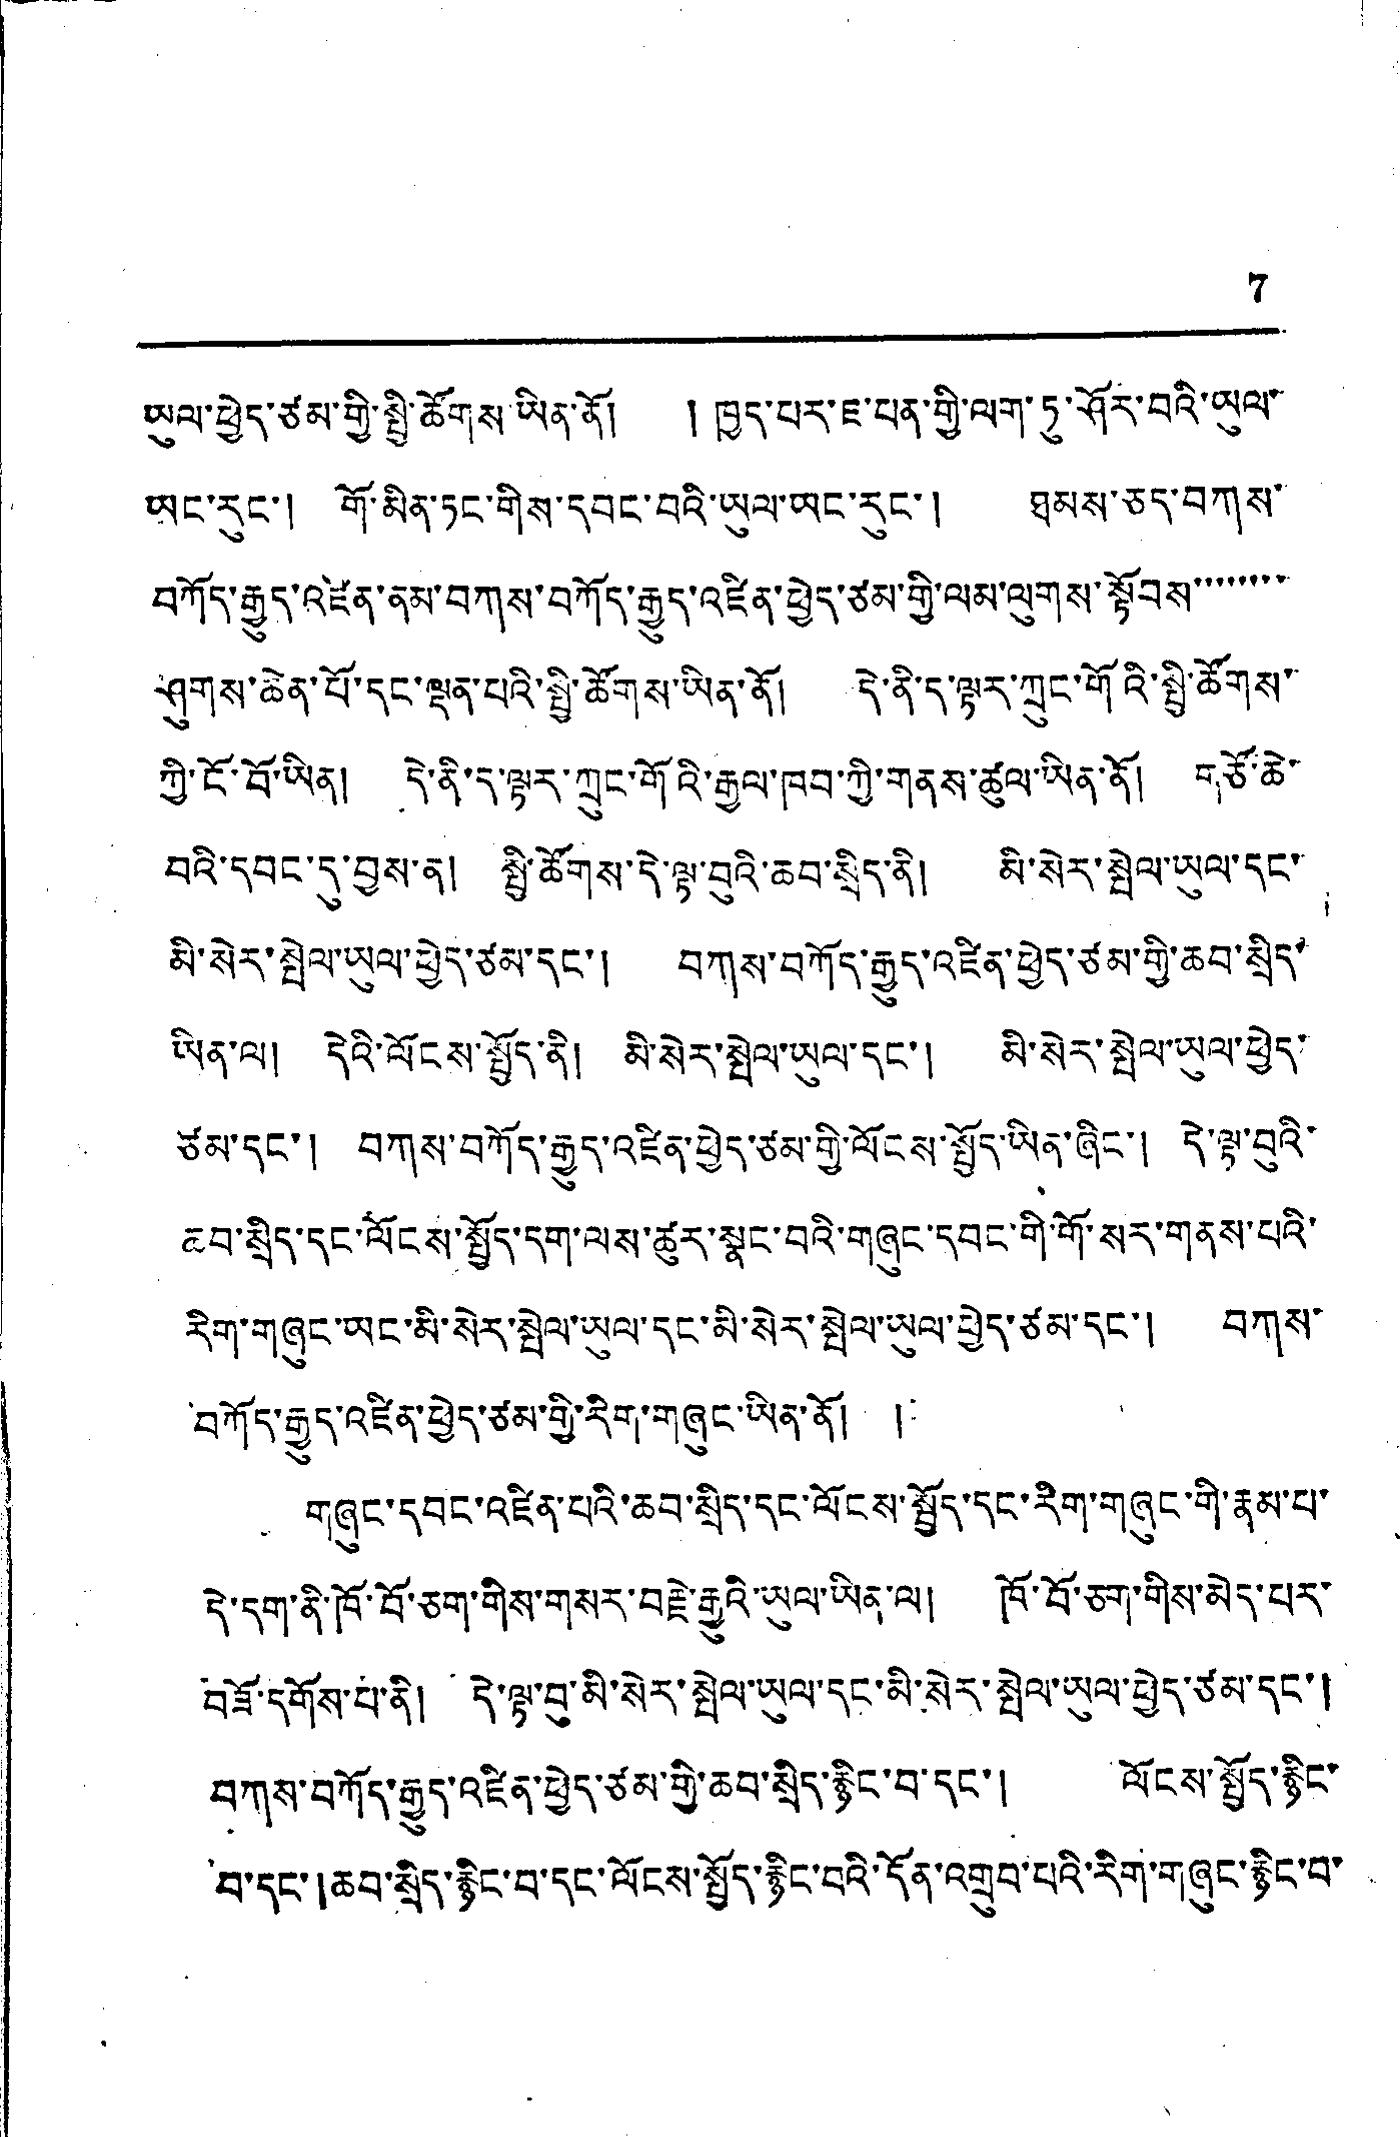7
ཡུལ་ཕྱེད་ཙམ་གྱི་སྤྱི་ཚོགས་ཡིན་ནོ། །ཁྱད་པར་ཇ་པན་གྱི་ལག་ཏུ་ཤོར་བའི་ཡུལ་
ཡང་རུང་། གོ་མིན་ཏང་གིས་དབང་བའི་ཡུལ་ཡང་རུང་། ཐམས་ཅད་བཀས་
བཀོད་རྒྱུད་འཛོན་ནམ་བཀས་བཀོད་རྒྱུད་འཛིན་ཕྱེད་ཙམ་གྱི་ལམ་ལུགས་སྟོབས་་་་་་་་་
ཤུགས་ཆེན་པོ་དང་ལྡན་པའི་སྤྱི་ཚོགས་ཡིན་ནོ། དེ་ནི་ད་ལྟར་ཀྲུང་གོའི་སྤྱི་ཚོགས་
ཀྱི་ངོ་བོ་ཡིན། དེ་ནི་ད་ལྟར་ཀྲུང་གོའི་རྒྱལ་ཁབ་ཀྱི་གནས་ཚུལ་ཡིན་ནོ། གཙོ་ཆེ་
བའི་དབང་དུ་བྱས་ན། སྤྱི་ཚོགས་དེ་ལྟ་བུའི་ཆབ་སྲིད་ནི། མི་སེར་སྤེལ་ཡུལ་དང་
མི་སེར་སྤེལ་ཡུལ་ཕྱེད་ཙམ་དང་། བཀས་བཀོད་རྒྱུད་འཛིན་ཕྱེད་ཙམ་གྱི་ཆབ་སྲིད་
ཡིན་ལ། དེའི་ལོངས་སྤྱོད་ནི། མི་སེར་སྤེལ་ཡུལ་དང་། མི་སེར་སྤེལ་ཡུལ་ཕྱེད་
ཙམ་དང་། བཀས་བཀོད་རྒྱུད་འཛིན་ཕྱེད་ཙམ་གྱི་ལོངས་སྤྱོད་ཡིན་ཞིང་། དེ་ལྟ་བུའི་
ཆབ་སྲིད་དང་ལོངས་སྤྱོད་དག་ལས་ཚུར་སྣང་བའི་གཞུང་དབང་གི་གོ་སར་གནས་པའི་
རིག་གཞུང་ཡང་མི་སེར་སྤེལ་ཡུལ་དང་མི་སེར་སྤེལ་ཡུལ་བྱེད་ཙམ་དང་། བཀས་
བཀོད་རྒྱུད་འཛིན་ཕྱེད་ཙམ་གྱི་རིག་གཞུང་ཡིན་ནོ། །
གཞུང་དབང་འཛིན་པའི་ཆབ་སྲིད་དང་ལོངས་སྤྱོད་དང་རིག་གཞུང་གི་རྣམ་པ་
དེ་དག་ནི་ཁོ་བོ་ཅག་གིས་གསར་བརྗེ་རྒྱུའི་ཡུལ་ཡིན་ལ། ཁོ་བོ་ཅག་གིས་མེད་པར་
བཟོ་དགོས་པ་ནི། དེ་ལྟ་བུ་མི་སེར་སྤྲེལ་ཡུལ་དང་མི་སེར་སྤེལ་ཡུལ་ཕྱེད་ཙམ་དང་།
བཀས་བཀོད་རྒྱུད་འཛིན་ཕྱེད་ཙམ་གྱི་ཆབ་སྲིད་རྙིང་བ་དང་། ལོངས་སྤྱོད་རྙིང་
བ་དང་།ཆབ་སྲིད་རྙིང་བ་དང་ལོངས་སྤྱོད་རྙིང་བའི་དོན་འགྲུབ་པའི་རིག་གཞུང་རྙིང་བ་
